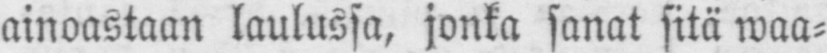ainoastaan laulussa, jonka sanat sitä waa-
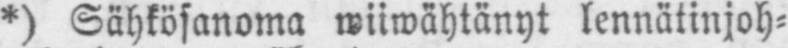*) Sähkösanoma wiiwähtänyt lennätinjoh-
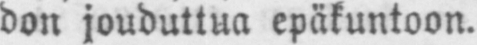don jouduttua epäkuntoon.
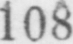108
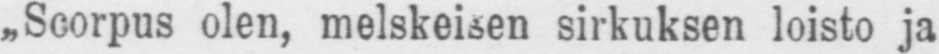"Scorpus olen, melskeisen sirkuksen loisto ja
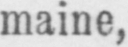maine,
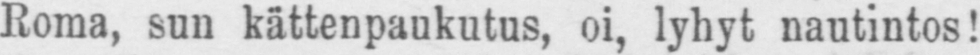Roma, sunu kättenpaukutus, oi, nautintos!
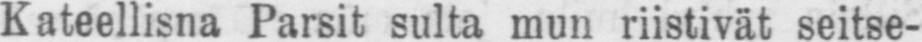Kateellisna Parsit sulta mun riistivät seitse-
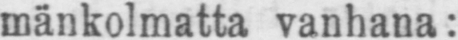mänkolmatta vanhana:
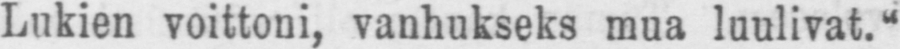Lukien voittoni, vanhukseks mua luulivat."
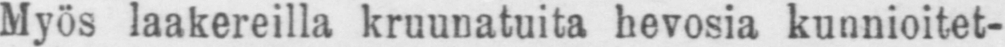Myös laakereilla kruunatuita hevosia kunnioitet-
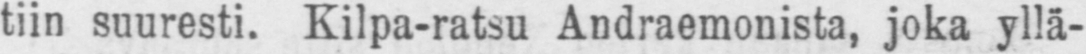tiin suuresti. Kilpa-ratsu Andraemonista joka yllä-
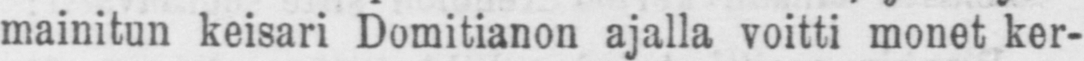mainitun keisari Domitianon ajalla voitti monot ker-
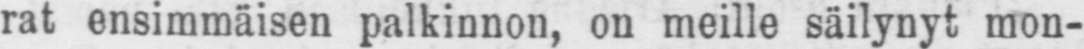rat ensimmäisen palkinnon, on meille mon-
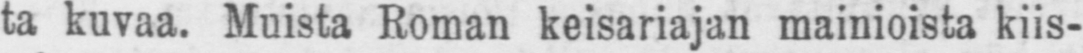ta kuvaa. Muista Roman keisariajan mainioista kiis-
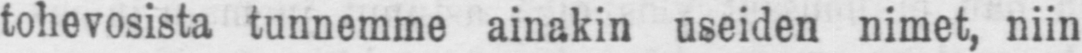tohevosista tunnemme ainakin useiden nimet, niin
